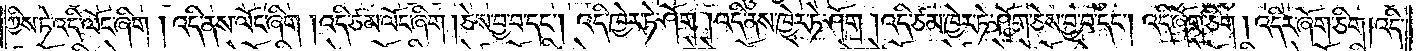ཀྱིས་ཏེ་འདི་ལོང་ཞིག །འདི་ནས་ལོང་ཞིག །འདི་ཙམ་ལོང་ཞིག །ཅེས་བྱ་བ་དང༌། འདི་ཁྱེར་ཏེ་ཤོག །འདི་ནས་ཁྱེར་ཏེ་ཤོག །འདི་ཙམ་ཁྱེར་ཏེ་ཤོག་ཅེས་བྱ་བ་དང༌། འདི་ཞོག་ཅིག །འདིར་ཞོག་ཅིག །འདི་
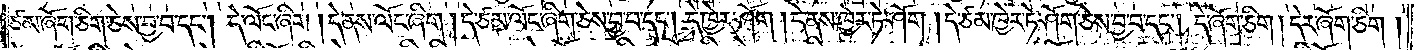ཙམ་ཞོག་ཅིག་ཅེས་བྱ་བ་དང༌། དེ་ལོང་ཞིག །དེ་ནས་ལོང་ཞིག །དེ་ཙམ་ལོང་ཞིག་ཅེས་བྱ་བ་དང༌། དེ་ཁྱེར་ཤོག །དེ་ནས་ཁྱེར་ཏེ་ཤོག །དེ་ཙམ་ཁྱེར་ཏེ་ཤོག་ཅེས་བྱ་བ་དང༌། དེ་ཞོག་ཅིག །དེར་ཞོག་ཅིག །
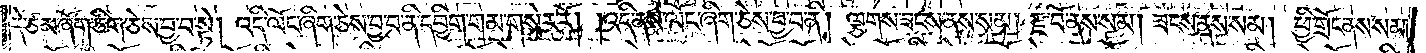དེ་ཙམ་ཞོག་ཅིག་ཅེས་བྱ་བ་སྟེ། འདི་ལོང་ཞིག་ཅེས་བྱ་བ་ནི་དབྱིག་གམ་གསེར་རོ། །འདི་ནས་ལོང་ཞིག་ཅེས་བྱ་བ་ནི། ལྕགས་ཟངས་ནས་སམ། རྫ་བོ་ནས་སམ། ཟངས་ནས་སམ། ཕྱི་གྲོང་ནས་སམ།
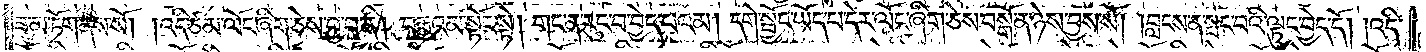ཟ་མ་ཏོག་ནས་སོ། །འདི་ཙམ་ལོང་ཞིག་ཅེས་བྱ་བ་ནི། བརྒྱའམ་སྟོང་སྟེ། གང་ན་རུང་བ་བྱེད་པའམ། དགེ་སྦྱོང་ཡོད་པ་དེར་ལོང་ཞིག་ཅེས་བསྒོ་ན་ཉེས་བྱས་སོ། །བླངས་ན་སྤང་བའི་ལྟུང་བྱེད་དོ། །འདི་
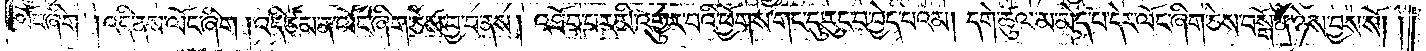ལོང་ཞིག །འདི་ནས་ལོང་ཞིག །འདི་ཙམ་ན་ལོང་ཞིག་ཅེས་བྱ་བ་ནས། འཐོབ་པར་མི་འགྱུར་བའི་ཕྱོགས་གང་དུ་རུང་བ་བྱེད་པའམ། དགེ་ཚུལ་མ་མེད་པ་དེར་ལོང་ཞིག་ཅེས་བསྒོ་ན་ཉེས་བྱས་སོ། །
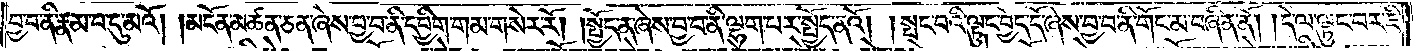བྱ་བ་ནི་རྣམ་པ་དུ་མའོ། །མངོན་མཚན་ཅན་ཞེས་བྱ་བ་ནི་དབྱིག་གམ་གསེར་རོ། །སྤྱོད་ན་ཞེས་བྱ་བ་ནི་ལྷག་པར་སྤྱོད་ནའོ། །སྤང་བའི་ལྟུང་བྱེད་དོ་ཞེས་བྱ་བ་ནི་གོང་མ་བཞིན་ནོ། །དེ་ལ་ལྟུང་བར་ཇི་
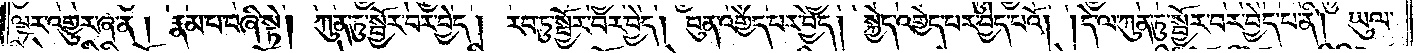ལྟར་འགྱུར་ཞེ་ན། རྣམ་པ་བཞི་སྟེ། ཀུན་ཏུ་སྦྱོར་བར་བྱེད། རབ་ཏུ་སྦྱོར་བར་བྱེད། བུན་འགྱེད་པར་བྱེད། སྐྱེད་འགྱེད་པར་བྱེད་པའོ། །དེ་ལ་ཀུན་ཏུ་སྦྱོར་བར་བྱེད་པ་ནི། ཡུལ་
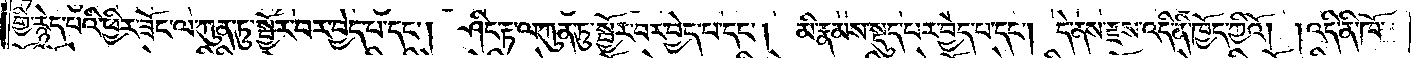གྱི་རྙེད་པའི་ཕྱིར་ཟོང་ལ་ཀུན་ཏུ་སྦྱོར་བར་བྱེད་པ་དང༌། ཤིང་རྟ་ལ་ཀུན་ཏུ་སྦྱོར་བར་བྱེད་པ་དང༌། མི་རྣམས་སྡུད་པར་བྱེད་པ་དང༌། དེ་ནས་རྫས་འདི་ནི་ཁྱོད་ཀྱིའོ། །འདི་ནི་ཁོ་
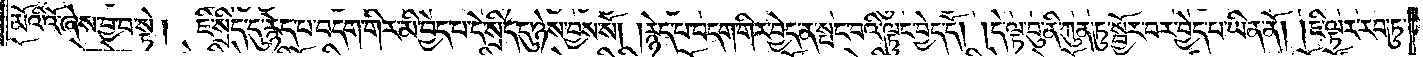མོའི་འོ་ཞེས་བྱ་བ་སྟེ། ཇི་སྲིད་དུ་རྙེད་པ་བདག་གིར་མི་བྱེད་པ་དེ་སྲིད་དུ་ཉེས་བྱས་སོ། །རྙེད་པ་བདག་གིར་བྱེད་ན་སྤང་བའི་ལྟུང་བྱེད་དོ། །དེ་ལྟ་བུ་ནི་ཀུན་ཏུ་སྦྱོར་བར་བྱེད་པ་ཡིན་ནོ། །ཇི་ལྟར་རབ་ཏུ་
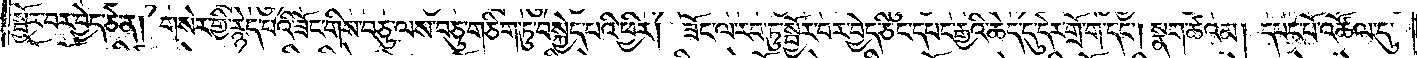སྦྱོར་བར་བྱེད་ཅེ་ན། གསེར་གྱི་རྙེད་པའི་ཟོང་གིས་བཅུ་ལས་བཅུ་གཅིག་ཏུ་བསྐྱེད་པའི་ཕྱིར། ཟོང་ལ་རབ་ཏུ་སྦྱོར་བར་བྱེད་ཅིང་དཔང་རྒྱའི་ཆེད་དུ་དེར་གྲོ་ག་དང༌། སྣག་ཚའམ། དཔང་པོ་འཚོལ་དུ་
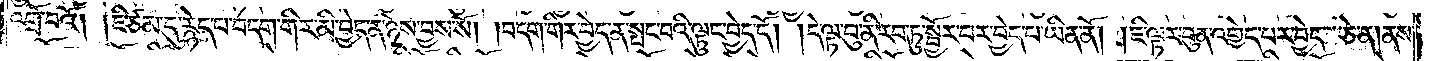འགྲོ་བའོ། །ཇི་ཙམ་དུ་རྙེད་པ་བདག་གིར་མི་བྱེད་ན་ཉེས་བྱས་སོ། །བདག་གིར་བྱེད་ན་སྤང་བའི་ལྟུང་བྱེད་དོ། །དེ་ལྟ་བུ་ནི་རབ་ཏུ་སྦྱོར་བར་བྱེད་པ་ཡིན་ནོ། །ཇི་ལྟར་བུན་འགྱེད་པར་བྱེད་ཅེ་ན། ནས་
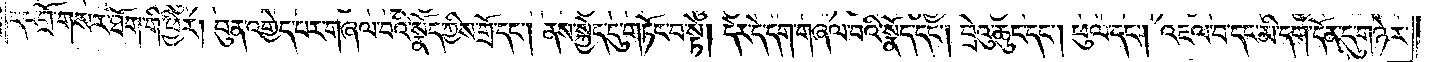དང་གྲོ་གསར་ཐོག་གི་ཕྱིར། བུན་འགྱེད་པར་གཞལ་བའི་སྣོད་ཀྱིས་གྲོ་དང༌། ནས་སྐྱེད་དུ་གཏོང་བ་སྟེ། དེར་དེ་དག་གཞལ་བའི་སྣོད་དང༌། བྲེའུ་ཆུང་དང༌། ཕུལ་དང༌། འཇལ་བ་དང་མི་དག་དོན་དུ་གཉེར་
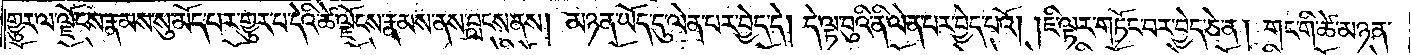གྱུར་ལ་ལྗོངས་རྣམས་སུ་མོད་པར་གྱུར་པ་དེའི་ཚེ་ལྗོངས་རྣམས་ནས་བླངས་ནས། མཉན་ཡོད་དུ་ལེན་པར་བྱེད་དེ། དེ་ལྟ་བུའི་ནི་ལེན་པར་བྱེད་པའོ། །ཇི་ལྟར་གཏོང་བར་བྱེད་ཅེ་ན། གང་གི་ཚེ་མཉན་
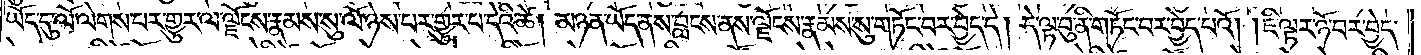ཡོད་དུ་ལོ་ལེགས་པར་གྱུར་ལ་ལྗོངས་རྣམས་སུ་ལོ་ཉེས་པར་གྱུར་པ་དེའི་ཚེ། མཉན་ཡོད་ནས་བླངས་ནས་ལྗོངས་རྣམས་སུ་གཏོང་བར་བྱེད་དེ། དེ་ལྟ་བུ་ནི་གཏོང་བར་བྱེད་པའོ། །ཇི་ལྟར་ཉོ་བར་བྱེད་
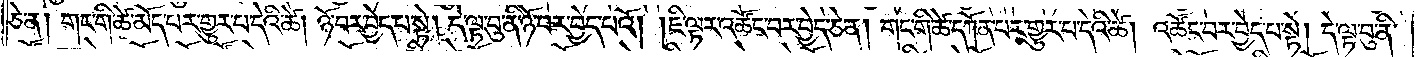ཅེ་ན། གང་གི་ཚེ་མོད་པར་གྱུར་པ་དེའི་ཚེ། ཉོ་བར་བྱེད་པ་སྟེ། དེ་ལྟ་བུ་ནི་ཉོ་བར་བྱེད་པའོ། །ཇི་ལྟར་འཚོང་བར་བྱེད་ཅེ་ན། གང་གི་ཚེ་དཀོན་པར་གྱུར་པ་དེའི་ཚེ། འཚོང་བར་བྱེད་པ་སྟེ། དེ་ལྟ་བུ་ནི་
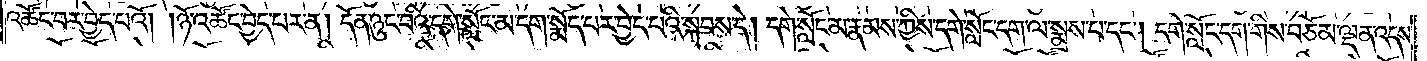འཚོང་བར་བྱེད་པའོ། །ཉོ་འཚོང་བྱེད་པར་ན། དོན་ཉུང་བའི་དགེ་སློང་མ་དག་སྨོད་པར་བྱེད་པའི་སྐབས་དེ། དགེ་སློང་མ་རྣམས་ཀྱིས་དགེ་སློང་དག་ལ་སྨྲས་པ་དང༌། དགེ་སློང་དག་གིས་བཅོམ་ལྡན་འདས་
